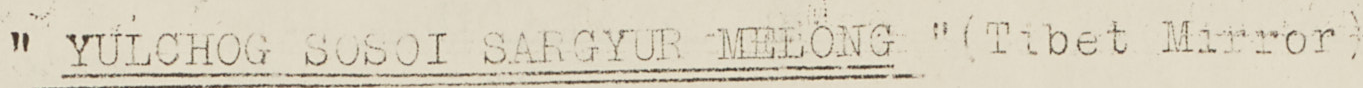" YULCHOG SOSOI SARGYUR MELONG " (Tibet Mirror)
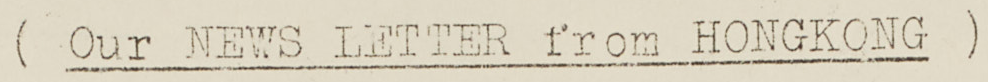Our NEWS LETTER from HONGKONG)
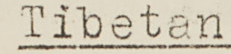Tibetan
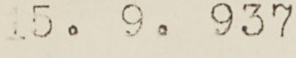5.9. 937
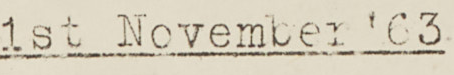1st November '63
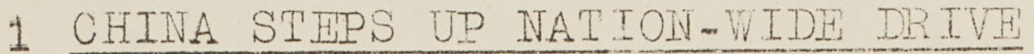1 CHINA STEPS UP NATION-WIDE DRIVE
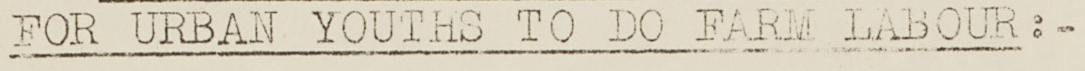FOR URBAN YOUTHS TO DO FARM LABOUR: -
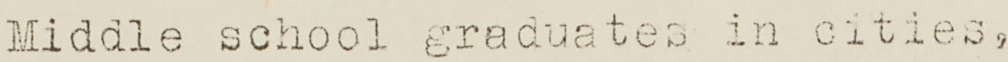Middle school graduates in cities,
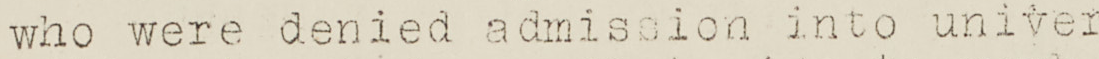who were denied admission into univer
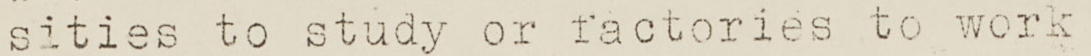sities to study or factories to work
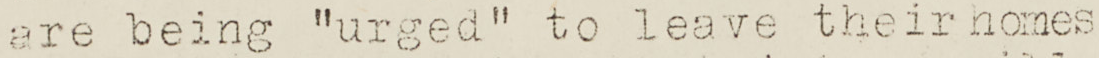are being "urged" to leave their homes
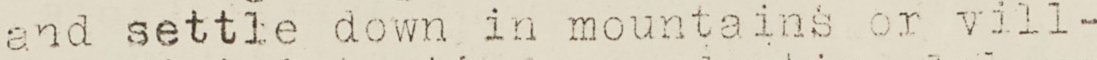and settle down in mountains or vill-
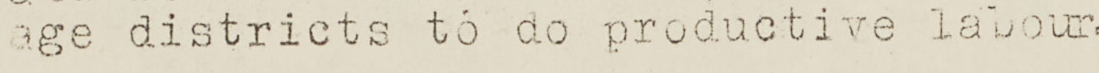age districts to do productive labour.
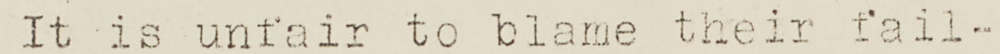It is unfair to blame their fail-
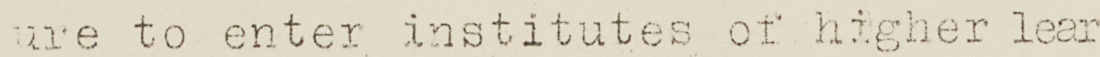we to enter institutes of higher lear
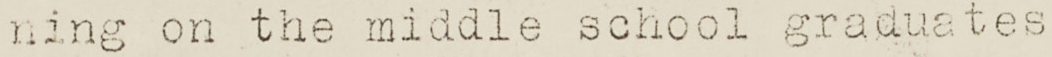ning on the middle school graduates
